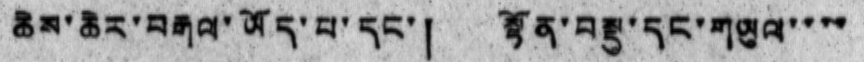ཆེས་ཆེར་བརྒལ་ཡོད་པ་དང་། སྟོན་བསྡུ་དང་གཡུལ་་་་
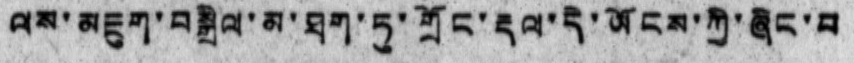ལས་མཇུག་བསྒྲིལ་མ་ཐག་ཏུ་གྲོང་རྡལ་དེ་ཡོངས་ཀྱི་ཞིང་པ
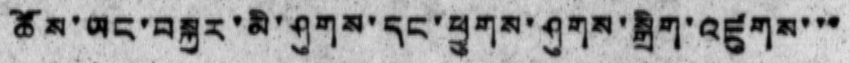ཚོས་ཡང་བསྐྱར་མི་ཤུགས་དང་ཕྱུགས་ཤུགས་སྒྲིག་འཛུགས་་་
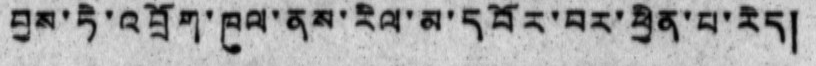བྱས་ཏེ་འབྲོག་ཁུལ་ནས་རིལ་མ་དབོར་བར་ཕྱིན་པ་རེད།
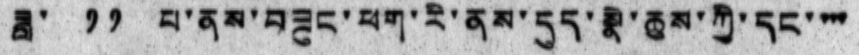ཟླ་ ༡༡ པ་ནས་བཟུང་ཕག་རི་ནས་དུད་སྣེ་ཆུས་ཀྱི་དང་་་་
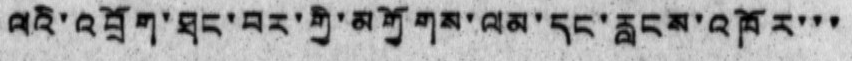ལའི་འབྲོག་ཐང་བར་གྱི་མགྱོགས་ལམ་དང་རླངས་འཁོར་་་
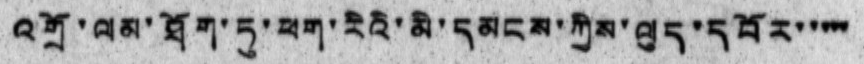འགྲོ་ལམ་ཐོག་ཏུ་ཕག་རིའི་མི་དམངས་ཀྱིས་ལུད་དབོར་་་་་་
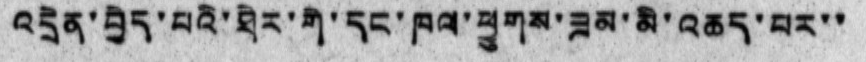འདྲེན་བྱེད་པའི་ཐེར་གི་དང་ཁལ་ཕྱུགས་ཟམ་མི་འཆད་པར་་
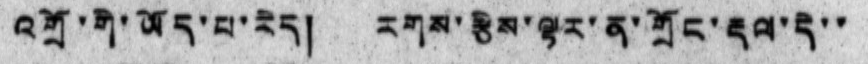འགྲོ་གི་ཡོད་པ་རེད། རགས་རྩིས་ལྟར་ན་གྲོང་རྡལ་དེ་་
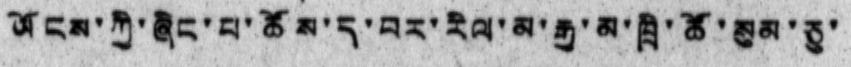ཡོངས་ཀྱི་ཞིང་པ་ཚོས་ད་བར་རིལ་མ་རྒྱ་མ་ཁྲི་ཚོ་སུམ་ཅུ་
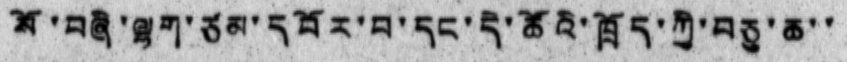སོ་བཞི་ལྷག་ཙམ་དབོར་བ་དང་དེ་ཚོའི་ཁྲོད་ཀྱི་བཅུ་ཆ་་
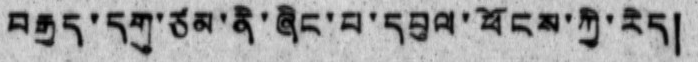བརྒྱད་དགུ་ཙམ་ནི་ཞིང་པ་དབུལ་ཕོངས་ཀྱི་རེད།
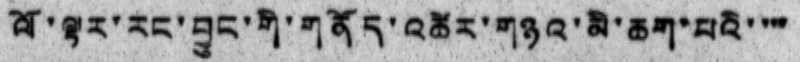ལོ་ལྟར་རང་བྱུང་གི་གནོད་འཚེར་གཉའ་མི་ཆག་པའི་་་་
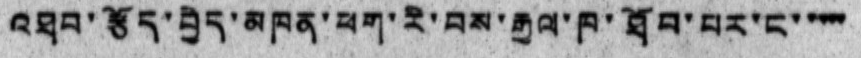འཐབ་རྩོད་བྱེད་མཁན་ཕག་རི་བས་རྒྱལ་ཁ་ཐོབ་པར་ང་་་་་
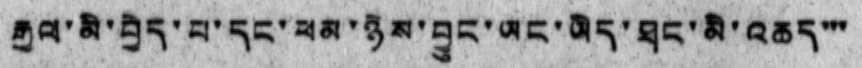རྒྱལ་མི་བྱེད་པ་དང་ཕམ་ཉེས་བྱུང་ཡང་ཡིད་ཐང་མི་འཆད་་་
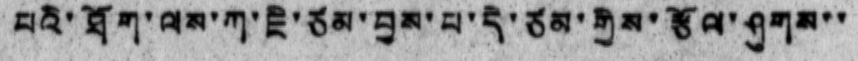པའི་ཐོག་ལས་ཀ་ཇི་ཙམ་བྱས་པ་དེ་ཙམ་གྱིས་རྩོལ་ཤུགས་་
